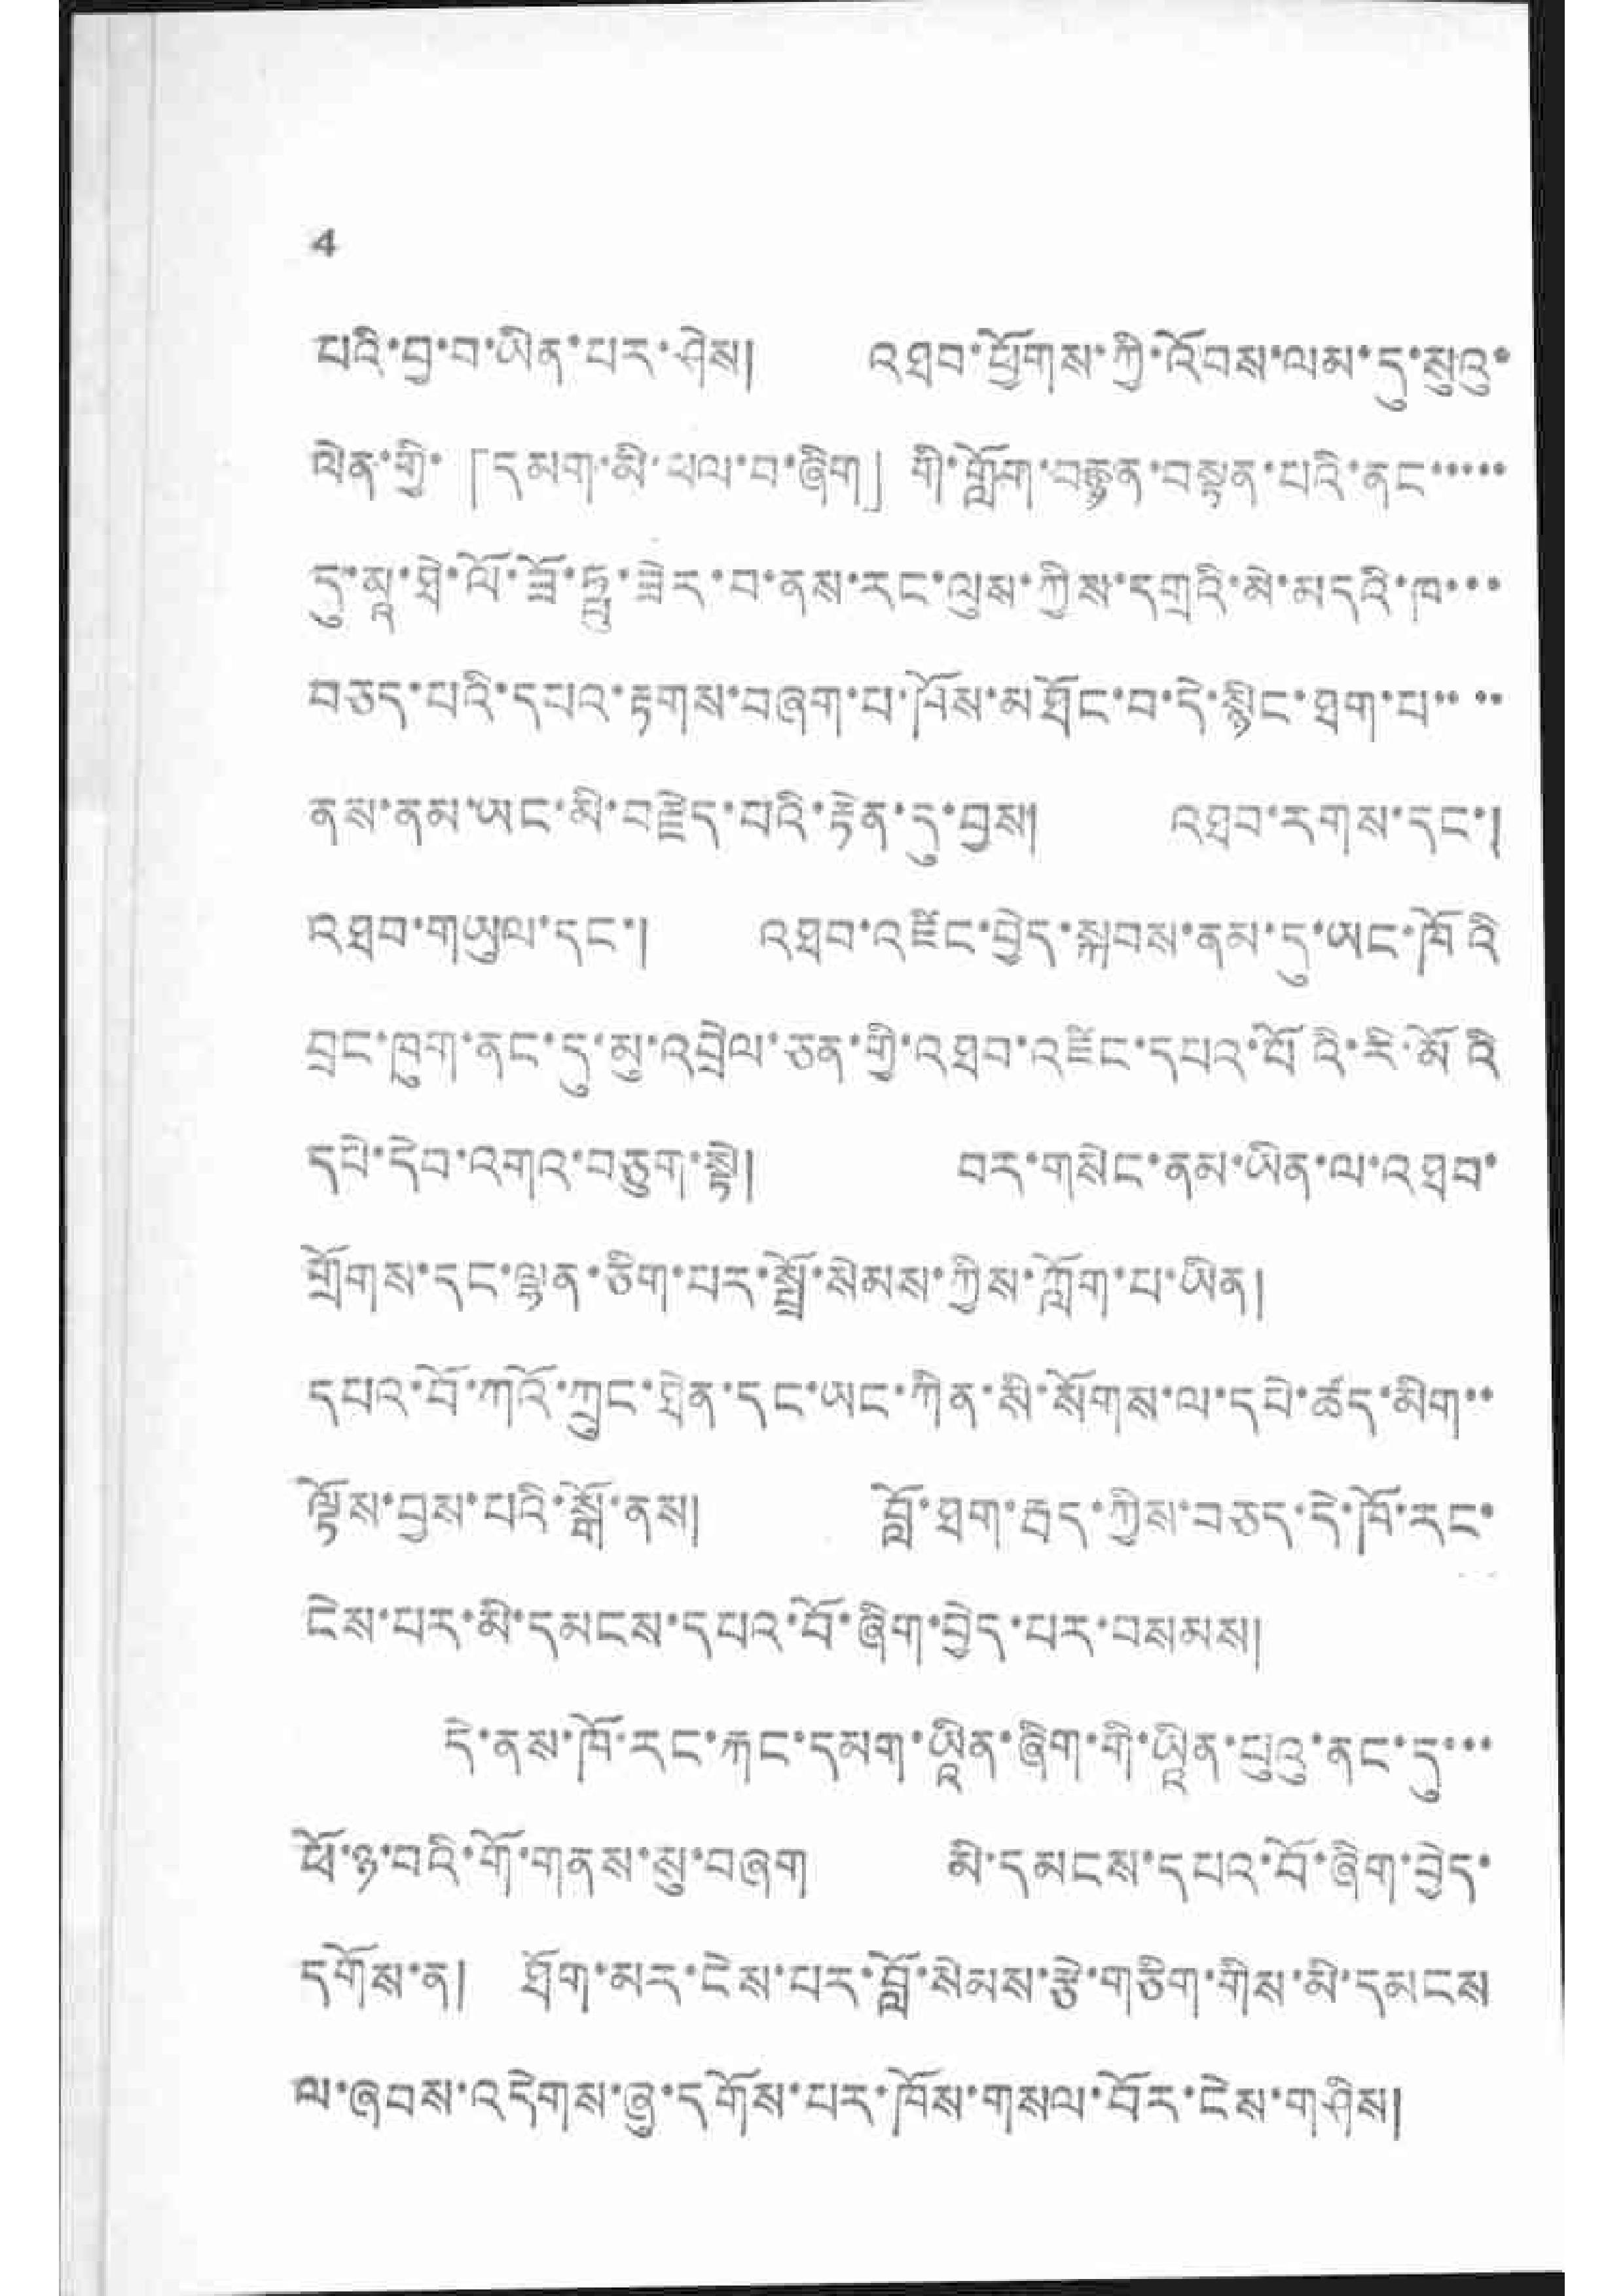4
པའི་བྱ་བ་ཡིན་པར་ཤེས། འཐབ་ཕྱོགས་ཀྱི་འོབས་ལམ་དུ་སུའུ་
ལེན་གྱི་「དམག་མི་ཕལ་བ་ཞིག」 གི་བློག་བརྙན་བསྟན་པའི་ནང་་་་་་
དུ་མཱ་ཐེ་ལོ་ཟོ་ཧྥུ་ཟེར་བ་ནས་རང་ལུས་ཀྱིས་དགྲའི་མེ་མདའི་ཁ་་་
བཅད་པའི་དཔའ་རྟགས་བཞག་པ་ཁོས་མཐོང་བ་དེ་སྙིང་ཐག་པ་་་་
ནས་ནམ་ཡང་མི་བརྗེད་བའི་རྟེན་དུ་བྱས། འཐབ་རགས་དང་།
འཐབ་གཡུལ་དང་། འཐབ་འཛིང་བྱེད་སྐབས་ནམ་དུ་ཡང་ཁོའི
བྲང་ཁུག་ནང་དུ་མུ་འབྲེལ་ཅན་གྱི་འཐབ་འཛིང་དཔའ་པོའི་རི་མོའི
དཔེ་དེབ་འགའ་བཅུག་སྟེ། བར་གསེང་ནམ་ཡིན་ལ་འཐབ་
གྲོགས་དང་ལྷན་ཅིག་པར་སྤྲོ་སེམས་ཀྱིས་ཀློག་པ་ཡིན།
དཔའ་བོ་ཀའོ་ཀྲུང་ཐེན་དང་ཡང་ཀིན་སི་སོགས་ལ་དཔེ་ཚོད་མིག་་
ལྟོས་བྱས་པའི་སྒོ་ནས། བློ་ཐག་རྦད་ཀྱིས་བཅད་དེ་ཁོ་རང་
ངེས་པར་མི་དམངས་དཔའ་བོ་ཞིག་བྱེད་པར་བསམས།
དེ་ནས་ཁོ་རང་རྐང་དམག་ཡཱིན་ཞིག་གི་ཡཱིན་པུའུ་ནང་དུ་་་
ཕོ་ཉ་བའི་གོ་གནས་སུ་བཞག མི་དམངས་དཔའ་བོ་ཞིག་བྱེད་
དགོས་ན། ཐོག་མར་ངེས་པར་བློ་སེམས་རྩེ་གཅིག་གིས་མི་དམངས
ལ་ཞབས་འདེགས་ཞུ་དགོས་པར་ཁོས་གསལ་བོད་ངེས་གཤིས།
